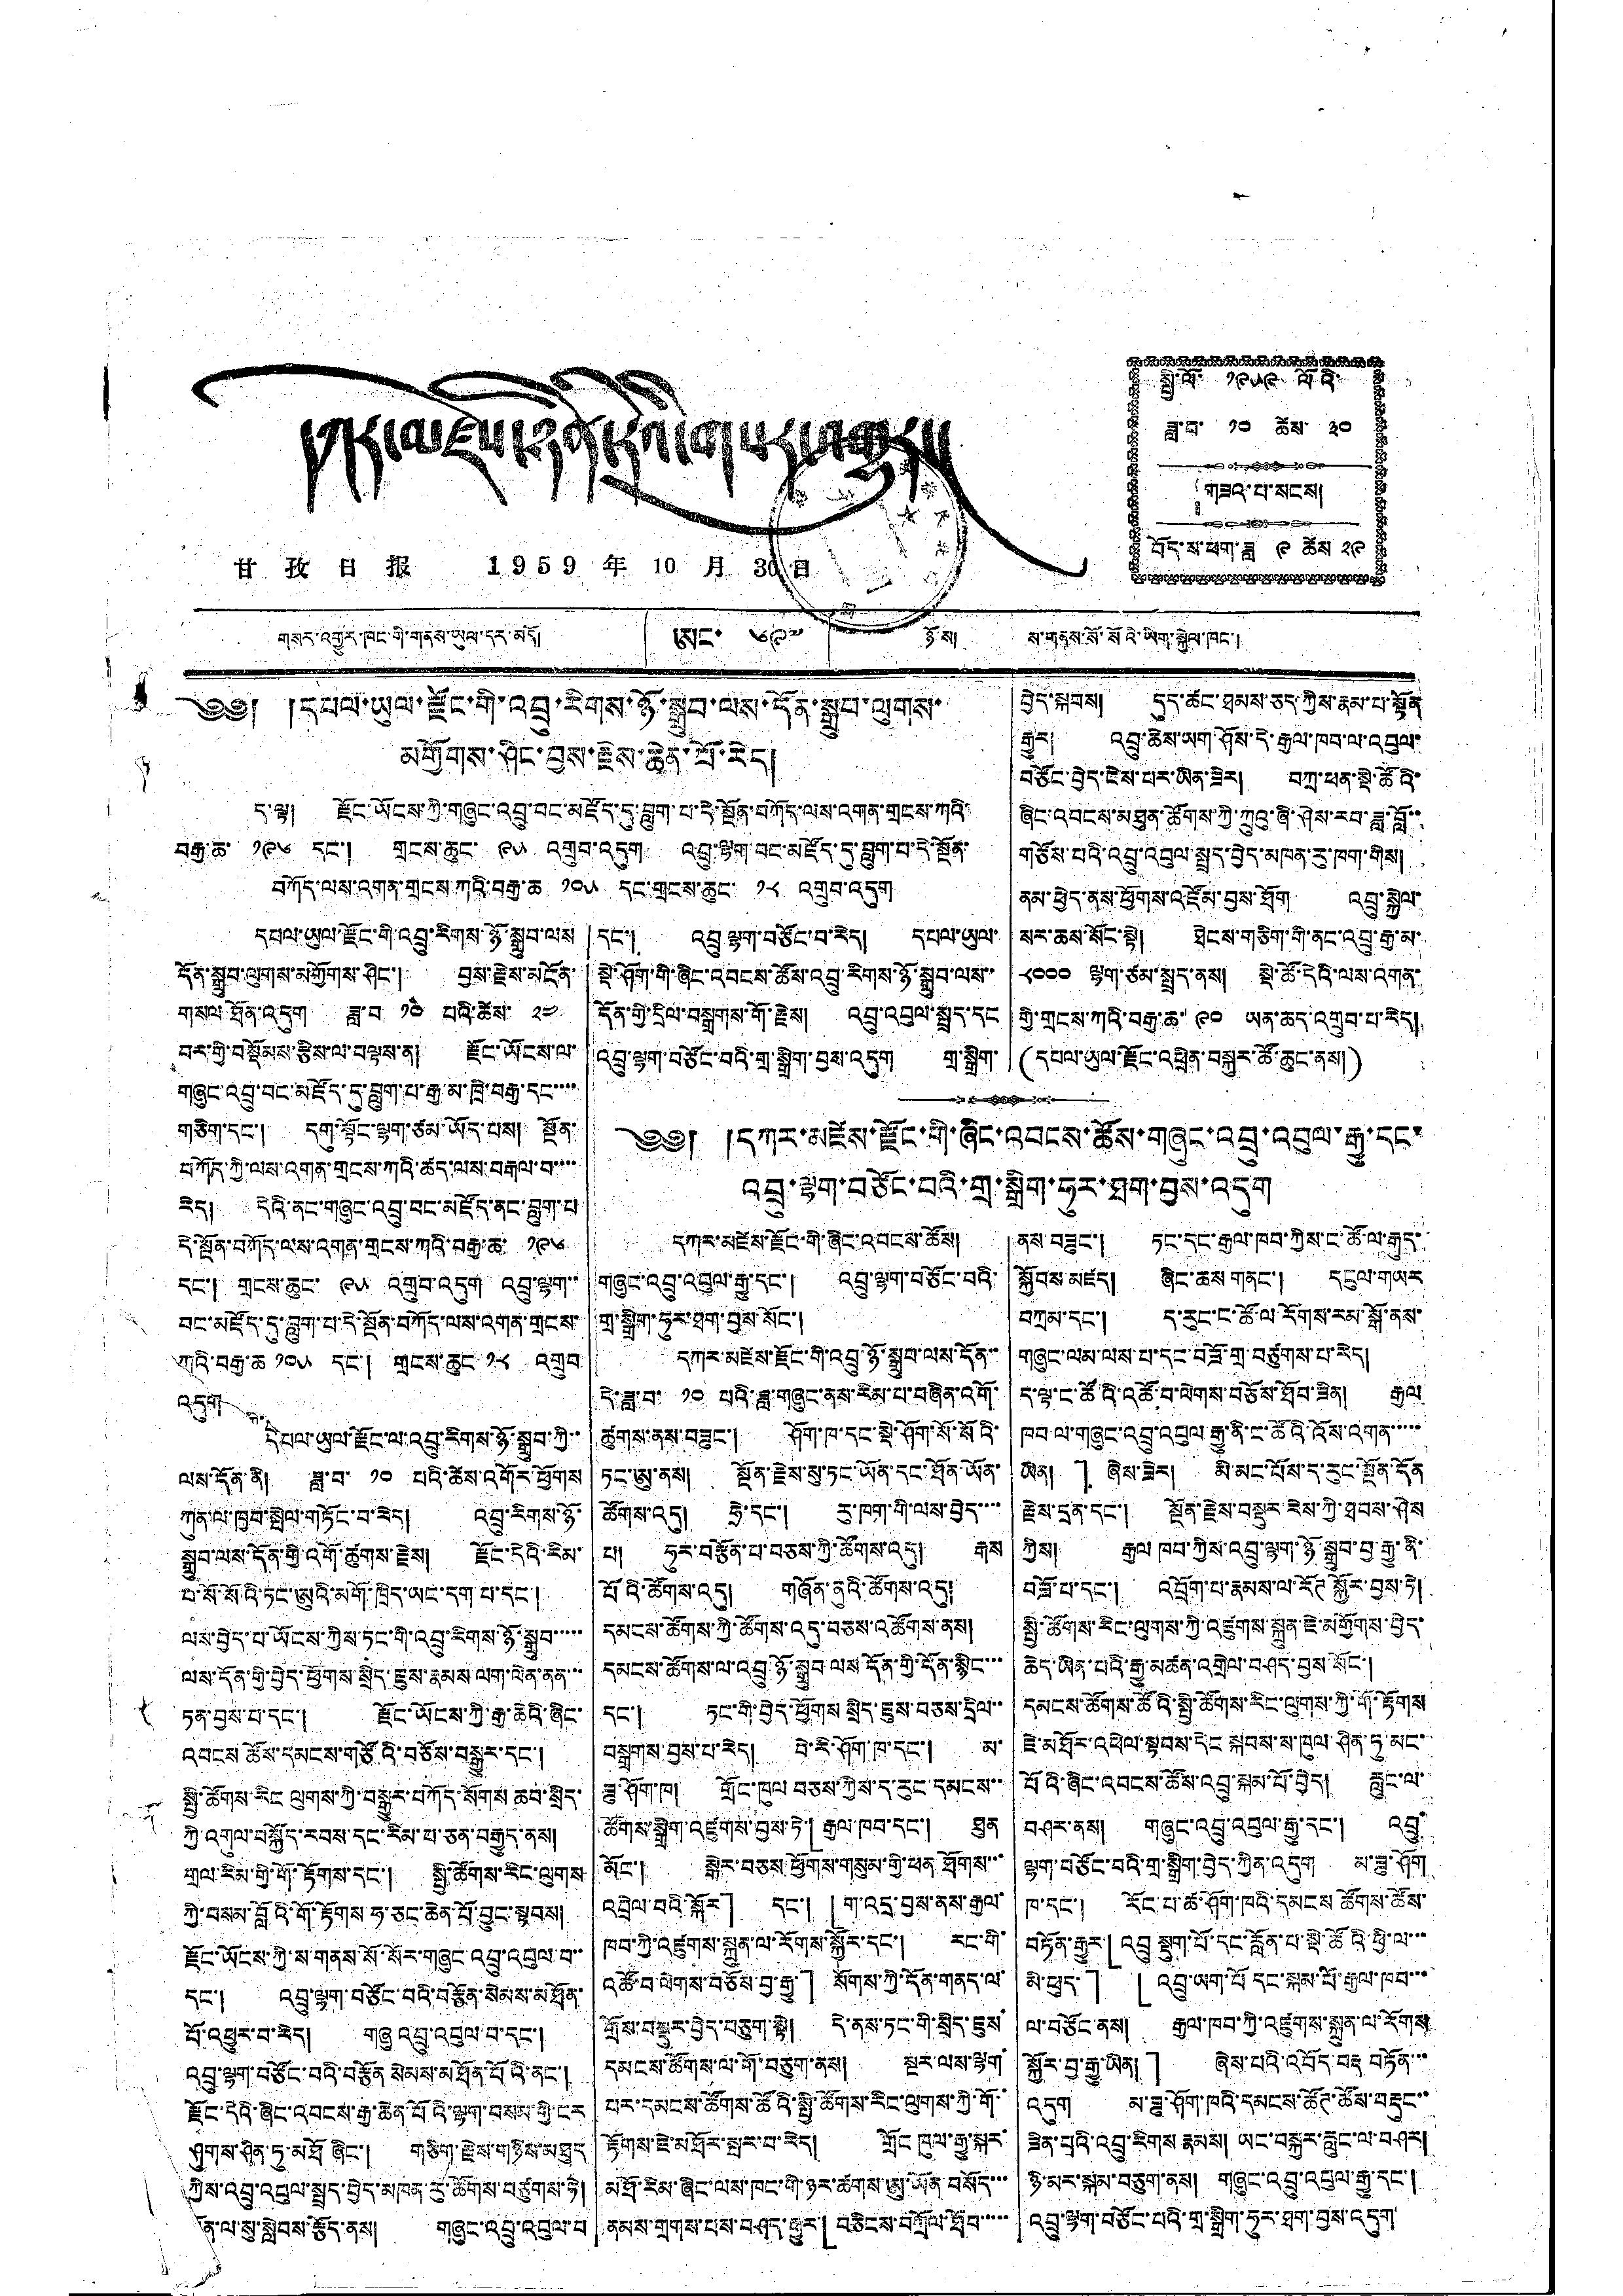དཀར་མཛེས་ཉིན་རེའི་གསར་འགྱུར།
甘 孜 日 报 1 9 5 9 年 10 月 30 日
སྤྱི་ལོ་ ༡༩༥༩ ལོའི་
ཟླ་བ་ ༡༠ ཚེས ༣༠
གཟའ་པ་སངས།
བོད་ས་ཕག་ཟླ ༩ ཚེས ༢༩
༄༅། །དཔལ་ཡུལ་རྫོང་གི་འབྲུ་རིགས་ཉོ་སྒྲུབ་ལས་དོན་སྒྲུབ་ལུགས་
མགྱོགས་ཤིང་བྱས་རྗེས་ཆེན་པོ་རེད།
ད་ལྟ། རྫོང་ཡོངས་ཀྱི་གཞུང་འབྲུ་བང་མཛོད་དུ་བླུག་པ་ཏེ་སྔོན་བཀོད་ལས་འགན་གྲངས་ཀའི་
བརྒྱ་ཆ་ ༡༩༦ དང་། གྲངས་ཆུང་ ༩༥ འགྲུབ་འདུག འབྲུ་ལྷག་བང་མཛོད་དུ་བླུག་པ་དེ་སྔོན་
བཀོད་ལས་འགན་གྲངས་ཀའི་བརྒྱ་ཆ ༡༠༥ དང་གྲངས་ཆུང་ ༡༨ འགྲུབ་འདུག
དཔལ་ཡུལ་རྫོང་གི་འབྲུ་རིགས་ཉོ་སྒྲུབ་ལས
དོན་སྒྲུབ་ལུགས་མགྱོགས་ཤིང་། བྱས་རྗེས་མངོན་
གསལ ཐོན་འདུག ཟླ་བ ༡༠ པའི་ཚེས་ ༢༤
བར་གྱི་བསྡོམས་རྩིས་ལ་བལྟས་ན། རྗོང་ཡོངས་ལ་
གཞུང་འབྲུ་བང་མཛོད་དུ་བླུག་པ་རྒྱ་མ་ཁྲི་བརྒྱ་དང་་་་
གཅིག་དང་། དགུ་སྟོང་ལྷག་ཙམ་ཡོད་པས། སྔོན་
བཀོད་ཀྱི་ལས་འགན་ཀྲངས་ཀའི་ཚད་ལས་བརྒལ་བ་་་་
རེད། དེའི་ནང་གཞུང་འབྲུ་བང་མཛོད་ནང་བླུག་པ
དེ་སྔོན་བཀོད་ལས་འགན་གྲངས་ཀའི་བརྒྱ་ཆ་ ༡༩༦
དང་། གྲངས་ཆུང་ ༩༥ འགྲུབ་འདུག འབྲུ་ལྷག་་
བང་མཛོད་དུ་བླུག་པ་དེ་སྔོན་བཀོད་ལས་འགན་གྲངས་
ཀའི་བརྒྱ་ཆ ༡༠༥ དང་། གྲངས་ཆུང ༡༨ འགྲུབ
འདུག
དཔལ་ཡུལ་རྫོང་ལ་འབྲུ་རིགས་ཉོ་སྒྲུབ་ཀྱི་་
ལས་དོན་ནི། ཟླ་བ་ ༡༠ པའི་ཚེས་འགོར་ཕྱོགས
ཀུན་ལ་ཁྱབ་སྤེལ་གཏོང་བ་རེད། འབྲུ་རིགས་ཉོ་
སྒྲུབ་ལས་དོན་གྱི་འགོ་ཚུགས་རྗེས། རྫོང་དེའི་རིམ་
པ་སོ་སོའི་ཏང་ཨུའི་མགོ་ཁྲིད་ཡང་དག་པ་དང་།
ལས་བྱེད་པ་ཡོངས་ཀྱིས་ཏང་གི་འབྲུ་རིགས་ཉོ་སྒྲུབ་་་་་
ལས་དོན་གྱི་བྱེད་ཕྱོགས་སྲིད་ཇུས་རྣམས ལག་ལེན་ནན་་་
ཏན་བྱས་པ་དང་། རྫོང་ཡོངས་ཀྱི་རྒྱ་ཆེའི་ཞིང་
འབངས ཚོས་དམངས་གཙོའི་བཅོས་བསྒྱུར་དང་།
སྤྱི་ཚོགས་རིང ལུགས་ཀྱི་བསྒྱུར་བཀོད་སོགས ཆབ་སྲིད་
ཀྱི་འགུལ་བསྐྱོད་རབས་དང་རིམ་པ་ཅན་བརྒྱུད་ནས།
གྲལ་རིམ་གྱི་གོ་རྟོགས་དང་། སྤྱི་ཚོགས་རིང་ལུགས
ཀྱི་བསམ་བློའི་གོ་རྟོགས ཧ་ཅང་ཆེན་པོ་བྱུང་སྟབས།
རྫོང་ཡོངས་ཀྱི་ས་གནས་སོ་སོར་གཞུང འབྲུ་འབུལ་བ་་
དང་། འབྲུ་ལྷག་བཙོང་བའི་བརྩོན་སེམས་མཐོན་
པོ་འཕྱུར་བ་རེད། གཞུ འབྲུ་འབུལ་བ་དང་།
འབྲུ་ལྷག་བཙོང་བའི་བརྩོན སེམས་མཐོན་པོའི་ནང་།
རྫོང་དེའི་ཞིང་འབངས་རྒྱ་ཆེན་པོའི་ལྷག་བསམ་གྱི་ངར
ཤུགས་ཤིན་ཏུ་མཐོ ཞིང་། གཅིག་རྗེས་གཉིས་མཐུད
ཀྱིས་འབྲུ་འབུལ་སྤྲད་བྱེད་མཁན་རུ་ཚོགས་བཙུགས་ཏེ།
དོན་ལ་སུ་སླེབས་རྩོད་ནས། གཞུང་འབྲུ་འབུལ་བ་
དང་། འབྲུ ལྷག་བཙོང་བ་རེད། དཔལ་ཡུལ་
སྡེ་ཤོག་གི་ཞིང་འབངས་ཚོས་འབྲུ་རིགས་ཉོ་སྒྲུབ་ལས་་
དོན་གྱི་དྲིལ་བསྒྲགས་གོ་རྗེས། འབྲུ་འབུལ་སྤྲད་དང
འབྲུ་ལྷག་བཙོང་བའི་གྲ་སྒྲིག་བྱས་འདུག གྲ་སྒྲིག་
བྱེད་སྐབས། དུད་ཚང་ཐམས་ཅད་ཀྱིས་རྣམ་པ་སྟོན
རྒྱུར། འབྲུ་ཆེས་ཡག་ཤོས་དེ་རྒྱལ་ཁབ་ལ་འབུལ་
བཙོང་བྱེད་ངེས་པར་ཡིན་ཟེར། བཀྲ་ཕན་སྡེ་ཚོའི་
ཞིང་འབངས་མཐུན་ཚོགས་ཀྱི་ཀྲུའུ་ཞི་ཤེས་རབ་ཟླ་བློ་་
གཙོས་པའི་འབྲུ་འབུལ་སྤྲད་བྱེད་མཁན་རུ་ཁག་གིས།
ནམ་ཕྱེད་ནས་ཕྱོགས་འཛོམ་བྱས་ཐོག འབྲུ་སྐྱེལ་
སར་ཆས་སོང་སྟེ། ཐེངས་གཅིག་གི་ནང་འབྲུ་རྒྱ་མ་
༨༠༠༠ ལྷག་ཙམ་སྤྲད་ནས། སྡེ་ཚོ་དེའི་ལས་འགན་
གྱི་གྲངས་ཀའི་བརྒྱ་ཆ་ ༩༠ ཡན་ཆད་འགྲུབ་པ་རེད།
(དཔལ་ཡུལ་རྫོང་འཕྲིན་བསྐུར་ཚོ་ཆུང་ནས།)
༄༅། །དཀར་མཛེས་རྫོང་གི་ཞིང་འབངས་ཚོས་གཞུང་འབྲུ་འབུལ་རྒྱུ་དང་
འབྲུ་ལྷག་བཙོང་བའི་གྲ་སྒྲིག་ཧུར་ཐག་བྱས་འདུག
དཀར་མཛེས་རྫོང་གི་ཞིང་འབངས་ཚོས།
གཞུང་འབྲུ་འབུལ་རྒྱུ་དང་། འབྲུ་ལྷག་བཙོང་བའི་
གྲ་སྒྲིག་ཧུར་ཐག་བྱས་སོང་།
དཀར་མཛེས་རྫོང་གི་འབྲུ་ཉོ་སྒྲུབ་ལས་དོན་་
དེ་ཟླ་བ་ ༡༠ པའི་ཟླ་གཞུང་ནས་རིམ་པ་བཞིན་འགོ་
ཚུགས་ནས་བཟུང་། ཤོག་ཁ་དང་སྡེ་ཤོག་སོ་སོའི་
ཏང་ཨུ་ནས། སྔོན་རྗེས་སུ་ཏང་ཡོན་དང་ཐོན་ཡོན་
ཚོགས་འདུ། ཧྲེ་དང་། རུ་ཁག་གི་ལས་བྱེད་་་་
པ། ཧུར་བརྩོན་པ་བཅས་ཀྱི་ཚོགས་འདུ། རྒས
པོའི་ཚོགས་འདུ། གཞོན་ནུའི་ཚོགས་འདུ།
དམངས་ཚོགས་ཀྱི་ཚོགས་འདུ་བཅས་འཚོགས་ནས།
དམངས་ཚོགས་ལ་འབྲུ་ཉོ་སྒྲུབ ལས དོན་གྱི་དོན་སྙིང་་་
དང་། ཏང་གི་བྱེད་ཕྱོགས སྲིད་ཇུས་བཅས་དྲིལ་་
བསྒྲགས་བྱས་པ་རེད། བེ་རི་ཤོག་ཁ་དང་། མ་
ཟུ་ཤོག་ཁ། གྲོང་ཁུལ བཅས་ཀྱིས་ད་རུང་དམངས་་
ཚོགས་སྒྲིག་འཛུགས་བྱས་ཏེ་「རྒྱལ་ཁབ་དང་། ཐུན
མོང་། སྒེར་བཅས ཕྱོགས་གསུམ་གྱི་ཕན ཐོགས་་་
འབྲེལ་བའི་སྐོར」 དང་། 「ག་འདྲ་བྱས་ནས་རྒྱལ་
ཁབ་ཀྱི་འཛུགས་སྐྲུན་ལ་རོགས་སྐྱོར་དང་། རང་གི་
འཚོ་བ་ལེགས་བཅོས་བྱ་རྒྱུ་」 སོགས་ཀྱི་དོན་གནད་ལ་
གྲོས་བསྡུར་བྱེད་བཅུག་སྟེ། དེ་ནས་ཏང་གི་སྲིད་ཇུས་
དམངས་ཚོགས་ལ་གོ་བཅུག་ནས། སྔར་ལས་ལྷག་
པར་དམངས་ཚོགས་ཚོའི་སྤྱི་ཚོགས་རིང་ལུགས་ཀྱི་གོ་་
རྟོགས་ཇེ་མཐོར་སྤར་བ་རེད། གྲོང ཁུལ་རྒྱུ་སྐར་
མཐོ་རིམ་ཞིང་ལས་ཁང་གི་ཉར་ཚགས་ཨུ་ཡོན་བསོད་་་
ནམས་གྲགས་པས་བཤད་རྒྱུར་「བཅིངས་བཀྲོལ་ཐོབ་་་་་
ནས་བཟུང་། ཏང་དང་རྒྱལ་ཁབ་ཀྱིས་ང་ཚོ་ལ་རྒུད་
སྐྱོབས མཛད། ཞིང་ཆས གནང་། དངུལ་གཡར
བཀྲམ་དང་། ད་རུང་ང་ཚོ་ལ་རོགས་རམ་སྒོ་ནས་
གཞུང་ལམ་ལས་པ་དང་བཟོ་གྲ་བཙུགས་པ་རེད།
ད་ལྟ་ང་ཚོའི་འཚོ་བ་ལེགས་བཅོས་ཐོབ་ཟིན། རྒྱལ
ཁབ་ལ་གཞུང་འབྲུ་འབུལ་རྒྱུ་ནི་ང་ཚོའི་འོས་འགན་་་་་
ཡིན། 」 ཞེས་ཟེར། མི་མང་པོས་ད་རུང་སྔོན་དོན
རྗེས་དྲན་དང་། སྔོན་རྗེས་བསྡུར་རེས་ཀྱི་ཐབས་ཤེས
ཀྱིས། རྒྱལ ཁབ་ཀྱིས་འབྲུ་ལྷག་ཉོ་སྒྲུབ་བྱ་རྒྱུ་ནི་
བཟོ་པ་དང་། འབྲོག་པ་རྣམས་ལ་རོཊ སྐྱོར་བྱས་ཏེ།
སྤྱི་ཚོགས་རིང་ལུགས་ཀྱི་འཛུགས་སྐྲུན་ཇེ་མགྱོགས་བྱེད་
ཆེད་ཡིན་པའི་རྒྱུ་མཚན་འགྲེལ་བཤད་བྱས་སོང་།
དམངས་ཚོགས་ཚོའི་སྤྱི་ཚོགས་རིང་ལུགས་ཀྱི་གོ་རྟོགས
ཇེ་མཐོར་འཕེལ་སྟབས་དེང་སྐབས་ས་ཁུལ་ཤིན་ཏུ་མང་
པོའི་ཞིང་འབངས་ཚོས་འབྲུ་སྐམ་པོ་བྱེད། རླུང་ལ་
བཤར་ནས། གཞུང་འབྲུ་འབུལ་རྒྱུ་དང་། འབྲུ་
ལྷག་བཙོང་བའི་གྲ་སྒྲིག་བྱེད་ཀྱིན་འདུག མ་ཟུ་ཤོག
ཁ་དང་། རོང་པ་ཚ་ཤོག་ཁའི་དམངས ཚོགས་ཚོས་
བཏོན་རྒྱུར་「འབྲུ སྡུག་པོ་དང་རློན་པ་སྡེ་ཚོའི་ཕྱི་ལ་་་
མི་ཕུད་」 「འབྲུ་ཡག་པོ དང་སྐམ་པོ་རྒྱལ་ཁབ་་་
ལ་བཙོང་ནས། རྒྱལ་ཁབ་ཀྱི་འཛུགས་སྐྲུན་ལ་རོགས
སྐྱོར་བྱ་རྒྱུ་ཡིན།」 ཞེས་པའི་འབོད་བརྡ བཏོན་་་
འདུག མ་ཟུ་ཤོག་ཁའི་དམངས་ཚོཊ་ཚོས་བརྡུང་་
ཟིན་པྲའི་འབྲུ་རིགས རྣམས། ཡང་བསྐྱར་རླུང་ལ་བཤར།
ཉི་མར་སྐམ་བཅུག་ནས། གཞུང་འབྲུ་འབུལ་རྒྱུ་དང་།
འབྲུ་ལྷག་བཙོང་པའི་གྲ་སྒྲིག་ཧུར་ཐག་བྱས་འདུག
